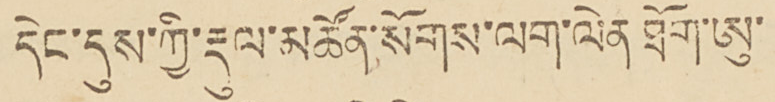དེང་དུས་ཀྱི་རྡུལ་མཚོན་སོགས་ལག་ལེན ཐོན་ཨུ་
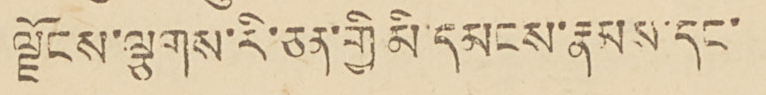ལྗོངས་ལྕགས་རི་ཅན་གྱི མི་དམངས་རྣམས་དང་
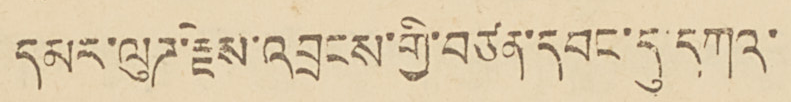དམར་ལུཌ་རྗེས་འབྲངས་གྱི་བཙན་དབང་དུ་དཀའ་
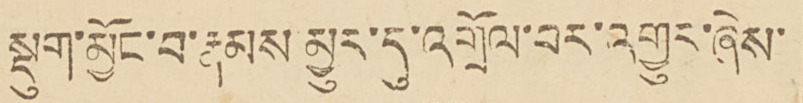སྡུག་མྱོང་བ་རྣམས མྱུར་དུ་འགྲོལ་བར་འགྱུར་ཞེས་
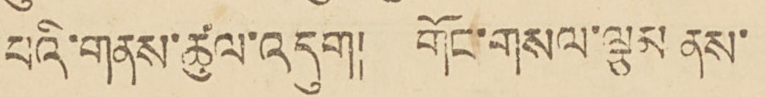པའི་གནས་ཚུལ་འདུག།། གོང་གསལ་ལྕམ ནས་
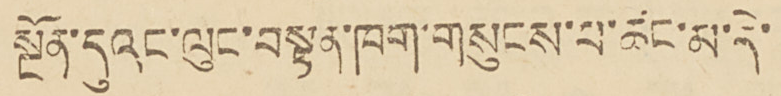སྔོན་དུའང་ལུང་བསྟན་ཁག་གསུངས་པ་ཚང་མ་དེ་
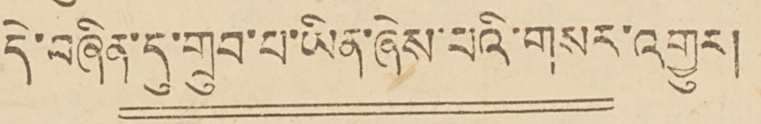དེ་བཞིན་དུ་གྲུབ་པ་ཡིན་ཞེས་པའི་གསར་འགྱུར།
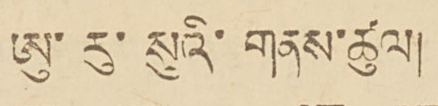ཨུ་རུ་སུའི་གནས་ཚུལ།
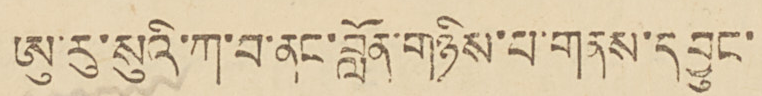ཨུ་རུ་སུའི་ཀ་བ་ནང་གཉིས་པ་གནས་དབྱུང་
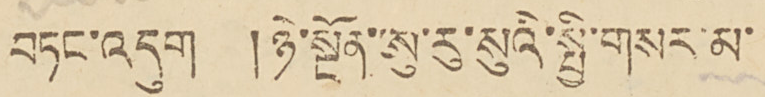བཏང་འདུག །ཉེ་སྔོན་ཨུ་རུ་སུའི་སྤྱི་གསར་མ་
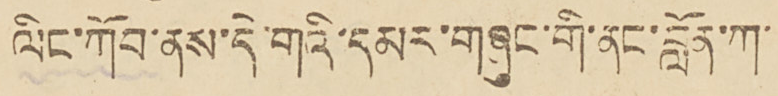ལིང་ཀོབ་ནས་དེ་གའི་དམར་གཞུང་གི་ནང་བློན་ཀ་
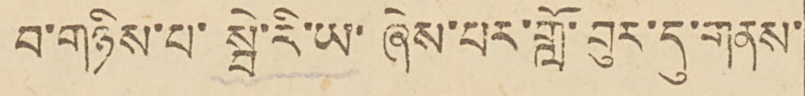བ་གཉིས་པ་སྦེ་རི་ཡ་ཞེས་པར་གློ་བུར་དུ་གནས་
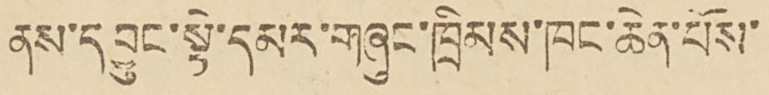ནས་དབྱུང་སྟེ་དམར་གཞུང་ཁྲིམས་ཁང་ཆེན་པོས་
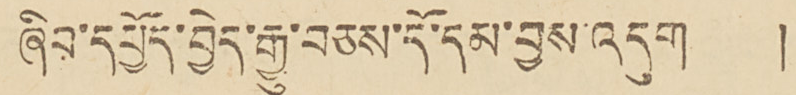ཞིབ་དཔྱོད་བྱེད་རྒྱུ་བཅས་དོ་དམ་བྱས་འདུག །
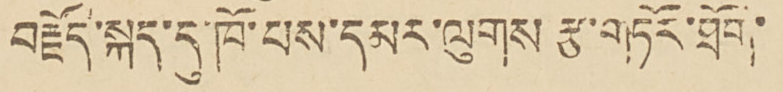བརྗོད་སྐད་དུ་ཁོ་པས་དམར་ལུགས རྩ་གཏོར་ཐོག་
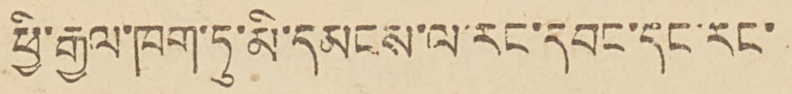ཕྱི་རྒྱལ་ཁག་ཏུ་མི་དམངས་ལ་རང་དབང་དང་རང་
